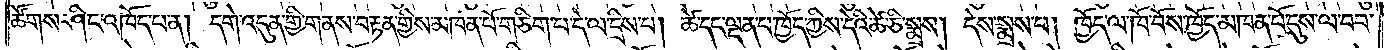ཚོགས་ཤིང་འཁོད་པ་ན། དགེ་འདུན་གྱི་གནས་བརྟན་གྱིས་མཁན་པོ་གཅིག་པ་དེ་ལ་དྲིས་པ། ཚེ་དང་ལྡན་པ་ཁྱོད་ཀྱིས་དེའི་ཚེ་ཅི་སྨྲས། དེས་སྨྲས་པ། ཁྱོད་ལ་ཁོ་བོས་ཁྱོད་མཁན་པོ་དུས་ལ་བབ་
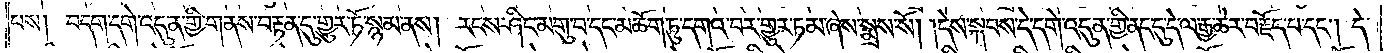པས། བདག་དགེ་འདུན་གྱི་གནས་བརྟན་དུ་གྱུར་ཏོ་སྙམ་ནས། རངས་ཤིང་མགུ་བ་དང་མཆོག་ཏུ་དགའ་བར་གྱུར་ཏམ་ཞེས་སྨྲས་སོ། །དེས་སྐབས་དེ་དགེ་འདུན་གྱི་ནང་དུ་དེ་ལ་རྒྱ་ཆེར་བརྗོད་པ་དང༌། དེ་
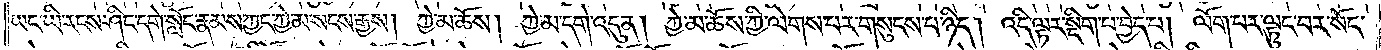ཡང་ཡི་རངས་ཤིང་དགེ་སློང་རྣམས་ཀྱང་ཀྱེ་མ་སངས་རྒྱས། ཀྱེ་མ་ཆོས། ཀྱེ་མ་དགེ་འདུན། ཀྱེ་མ་ཆོས་ཀྱི་ལེགས་པར་གསུངས་པ་ཉིད། འདི་ལྟར་སྡིག་པ་བྱེད་པ། ལོག་པར་ལྟུང་བར་སོང་
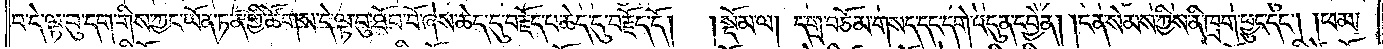བ་དེ་ལྟ་བུ་དག་གིས་ཀྱང་ཡོན་ཏན་གྱི་ཚོགས་དེ་ལྟ་བུ་ཐོབ་བོ་ཞེས་ཆེད་དུ་བརྗོད་པ་ཆེད་དུ་བརྗོད་དོ།  །སྡོམ་ལ། དགྲ་བཅོམ་གསད་དང་དགེ་འདུན་དབྱེན། །ངན་སེམས་ཀྱིས་ནི་ཁྲག་ཕྱུང་དང༌། །ཕམ་
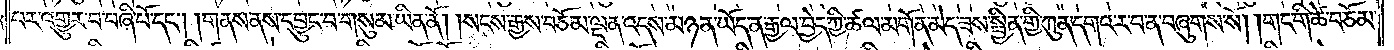པར་འགྱུར་བ་བཞི་པོ་དང༌། །གནས་ནས་དབྱུང་བ་གསུམ་ཡིན་ནོ། །སངས་རྒྱས་བཅོམ་ལྡན་འདས་མཉན་ཡོད་ན་རྒྱལ་བྱེད་ཀྱི་ཚལ་མགོན་མེད་ཟས་སྦྱིན་གྱི་ཀུན་དགའ་ར་བ་ན་བཞུགས་སོ། །གང་གི་ཚེ་བཅོམ་
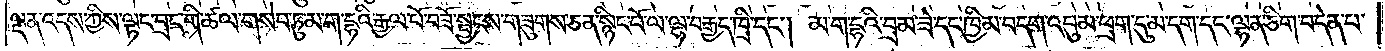ལྡན་འདས་ཀྱིས་ལྟང་བྲང་གི་ཚལ་གསེབ་ཏུ་མ་ག་དྷའི་རྒྱལ་པོ་བཟོ་སྦྱངས་གཟུགས་ཅན་སྙིང་པོ་ལ་ལྷ་བརྒྱད་ཁྲི་དང༌། མ་ག་དྷའི་བྲམ་ཟེ་དང་ཁྱིམ་བདག་འབུམ་ཕྲག་དུ་མ་དག་དང་ལྷན་ཅིག་བདེན་པ་
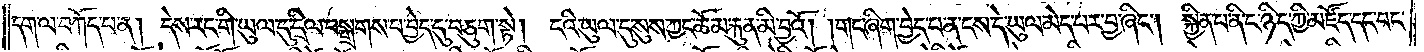དག་ལ་བཀོད་པ་ན། དེས་རང་གི་ཡུལ་དུ་དྲིལ་བསྒྲགས་པ་བྱེད་དུ་བཅུག་སྟེ། ངའི་ཡུལ་དུ་སུས་ཀྱང་ཆོམ་རྐུན་མི་བྱའོ། །གང་ཞིག་བྱེད་པན་ངས་དེ་ཡུལ་མེད་པར་བྱ་ཞིང༌། སྐྱིན་པ་ནི་ང་ཉིད་ཀྱི་མཛོད་དང་བང་
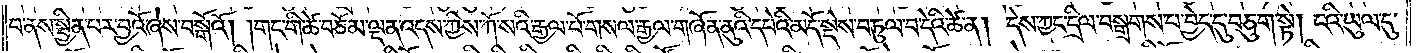བ་ནས་སྦྱིན་པར་བྱའོ་ཞེས་བསྒོའོ། །གང་གི་ཚེ་བཅོམ་ལྡན་འདས་ཀྱིས་ཀོ་སའི་རྒྱལ་པོ་གསལ་རྒྱལ་གཞོན་ནུའི་དཔེའི་མདོ་སྡེས་བཏུལ་བ་དེའི་ཚེ་ན། དེས་ཀྱང་དྲིལ་བསྒྲགས་པ་བྱེད་དུ་བཅུག་སྟེ། ངའི་ཡུལ་དུ་
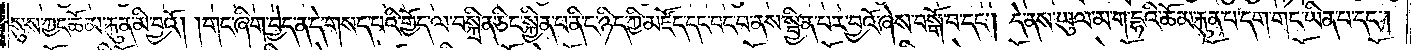སུས་ཀྱང་ཆོམ་རྐུན་མི་བྱའོ། །གང་ཞིག་བྱེད་ན་དེ་གསད་པའི་གྱོད་ལ་བསྐྲིན་ཅིང་སྐྱིན་པ་ནི་ང་ཉིད་ཀྱི་མཛོད་དང་བང་བ་ནས་སྦྱིན་པར་བྱའོ་ཞེས་བསྒོ་བ་དང༌། དེ་ནས་ཡུལ་མ་ག་དྷའི་ཆོམ་རྐུན་པ་དག་གང་ཡིན་པ་དང༌།
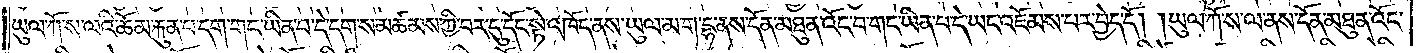ཡུལ་ཀོ་ས་ལའི་ཆོམ་རྐུན་པ་དག་གང་ཡིན་པ་དེ་དག་ས་མཚམས་ཀྱི་བར་དུ་དོང་སྟེ་འཁོད་ནས་ཡུལ་མ་ག་དྷ་ནས་དོན་མཐུན་འོང་བ་གང་ཡིན་པ་དེ་ཡང་འཇོམས་པར་བྱེད་དོ། །ཡུལ་ཀོ་ས་ལ་ནས་དོན་མཐུན་འོང་
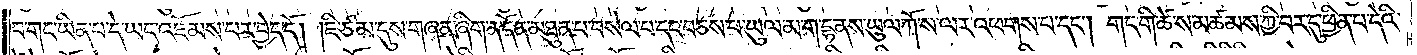བ་གང་ཡིན་པ་དེ་ཡང་འཇོམས་པར་བྱེད་དོ། །ཇི་ཙམ་དུས་གཞན་ཞིག་ན་དོན་མཐུན་པ་བསེལ་པ་དང་བཅས་པ་ཡུལ་མ་ག་དྷ་ནས་ཡུལ་ཀོ་ས་ལར་འཕགས་པ་དང༌། གང་གི་ཚེ་ས་མཚམས་ཀྱི་བར་དུ་ཕྱིན་པ་དེའི་
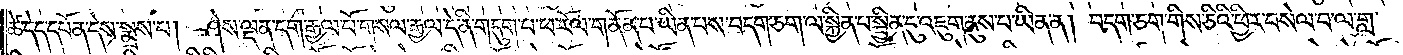ཚེ་དེད་དཔོན་དེས་སྨྲས་པ། ཤེས་ལྡན་དག་རྒྱལ་པོ་གསལ་རྒྱལ་དེ་ནི་གདུག་པ་ཕ་རོལ་གནོན་པ་ཡིན་པས་བདག་ཅག་ལ་སྐྱིན་པ་སྦྱིན་དུ་འཇུག་ནུས་པ་ཡིན་ན། བདག་ཅག་གིས་ཅིའི་ཕྱིར་བསེལ་བ་ལ་གླ་
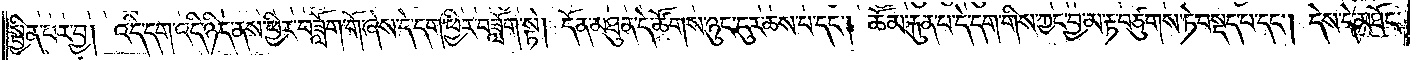སྦྱིན་པར་བྱ། འདི་དག་འདི་ཉིད་ནས་ཕྱིར་བཟློག་གོ་ཞེས་དེ་དག་ཕྱིར་བཟློག་སྟེ། དོན་མཐུན་དེ་ཚོགས་ཉུང་ངུར་ཆས་པ་དང༌། ཆོམ་རྐུན་པ་དེ་དག་གིས་ཀྱང་བྱ་མ་རྟ་བཙུགས་ཏེ་བསྡད་པ་དང༌། དེས་དེ་མཐོང་
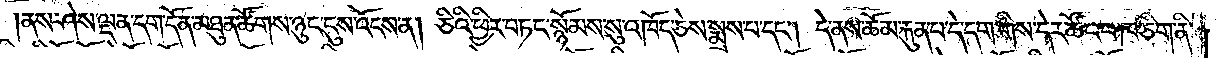ནས་ཤེས་ལྡན་དག་དོན་མཐུན་ཚོགས་ཉུང་དུས་འོངས་ན། ཅིའི་ཕྱིར་བཏང་སྙོམས་སུ་འཁོད་ཅེས་སྨྲས་པ་དང༌། དེ་ནས་ཆོམ་རྐུན་པ་དེ་དག་གིས་དེར་ཚོང་པ་ཁ་ཅིག་ནི་
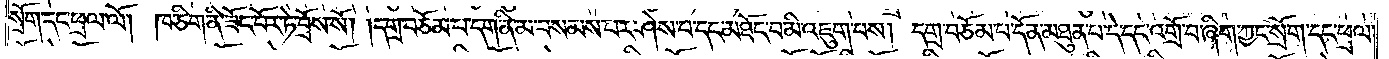སྲོག་དང་ཕྲལ་ལོ། ཁ་ཅིག་ནི་ཟོང་བོར་ཏེ་བྲོས་སོ། །དགྲ་བཅོམ་པ་དག་ནི་མ་བསམས་པར་ཤེས་པ་དང་མཐོང་བ་མི་འཇུག་པས། དགྲ་བཅོམ་པ་དོན་མཐུན་པ་དེ་དང་འགྲོ་བ་ཞིག་ཀྱང་སྲོག་དང་ཕྲལ་
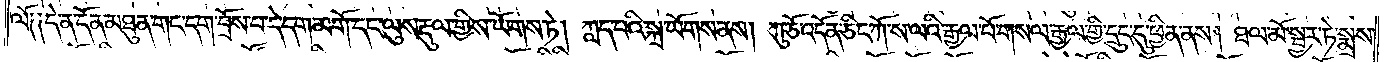ལོ ༑ ༑ དེ་ན་དོན་མཐུན་གང་དག་བྲོས་པ་དེ་དག་མགོ་དང་ལུས་རྡུལ་གྱིས་ཡོགས་ཏེ། ཀླད་པའི་སྐྲ་ཡོགས་ནས། ཀུ་ཅོ་འདོན་ཅིང་ཀོ་ས་ལའི་རྒྱལ་པོ་གསལ་རྒྱལ་གྱི་དྲུང་དུ་ཕྱིན་ནས། ཐལ་མོ་སྦྱར་ཏེ་སྨྲས་
